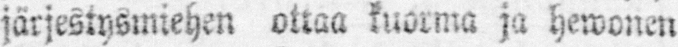järjestysimehen ottaa kuorma ja hewonen
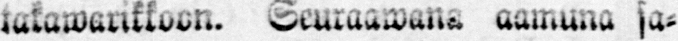takawarikkoon Seuraawana aamuna sa-
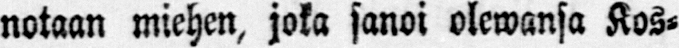notaan miehen, joka sanoi olewansa Kos-
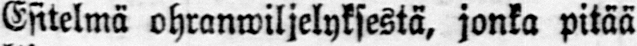Esitelmä ohranwiljelyksestä, jonka pitää
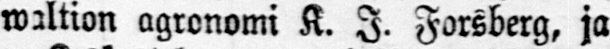waltion agronomi K. I. Forsberg, ja
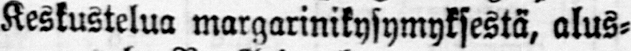Keskustelua margarinikysymyksestä, alus-
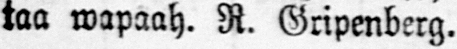taa wapaah. R. Gripenberg.
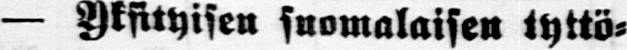— Yksityisen suomalaisen tyttö-
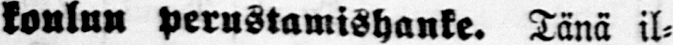koulun Perustamishanke. Tänä il-
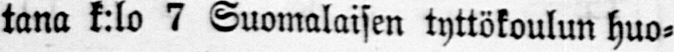tana t:lo 7 Suomalaisen tyttökoulun huo-
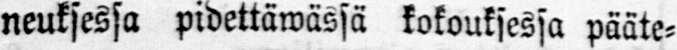neuksessa pidettäwässä kokouksessa pääte-
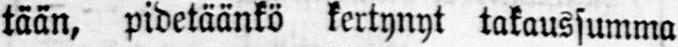tään, pidetäänkö kertynyt takaussumma
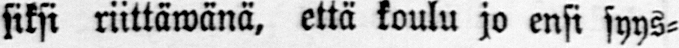siksi riittäwänä, että koulu jo ensi syys-
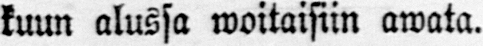kuun alussa woitaisiin awata.
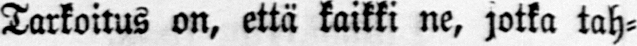Tarkoitus on, että kaikki ne, jotka tah-
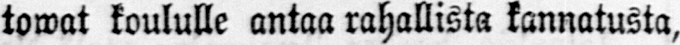towat koululle antaa rahallista kannatusta,
